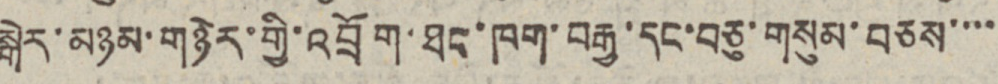སྒེར་མཉམ་གཉེར་གྱི་འབྲོག་ཐང་ཁག་བརྒྱ་དང་བཅུ་གསུམ་བཅས་་་་
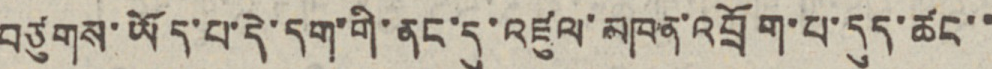བཙུགས་ཡོད་པ་དེ་དག་གི་ནང་དུ་འཛུལ་མཁན་འབྲོག་པ་དུད་ཚང་་
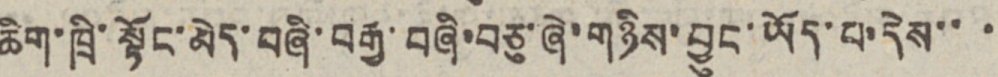ཆིག་ཁྲི་སྟོང་མེད་བཞི་བརྒྱ་བཞི་བཅུ་ཞེ་གཉིས་བྱུང་ཡོད་པ་དེས་་་
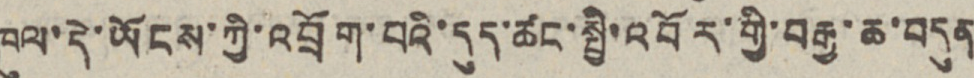ཁུལ་དེ་ཡོངས་ཀྱི་འབྲོག་པའི་དུད་ཚང་སྤྱི་འབོར་གྱི་བརྒྱ་ཆ་བདུན་
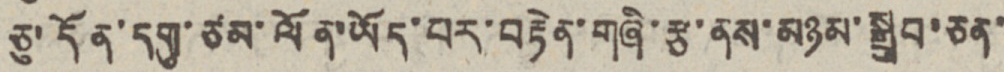ཅུ་དོན་དགུ་ཙམ་ལོན་ཡོད་པར་བརྟེན་གཞི་རྩ་ནས་མཉམ་སྒྲུབ་ཅན་
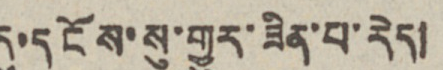དུ་དངོས་སུ་གྱུར་ཟིན་པ་རེད།
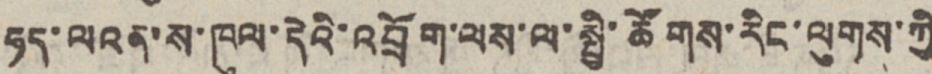ཧད་ལའན་ས་ཁུལ་དེའི་འབྲོག་ལས་ལ་སྤྱི་ཚོགས་རིང་ལུགས་ཀྱི
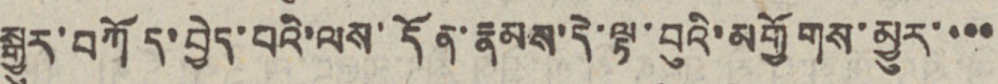སྒྱུར་བཀོད་བྱེད་པའི་ལས་དོན་རྣམས་དེ་ལྟ་བུའི་མགྱོགས་མྱུར་་་་
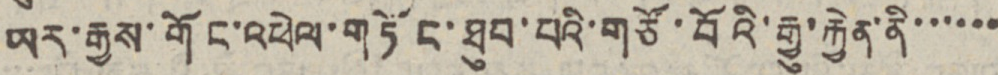ཡར་རྒྱས་གོང་འཕེལ་གཏོང་ཐུབ་པའི་གཙོ་བོའི་རྒྱུ་རྐྱེན་ནི་་་་་་
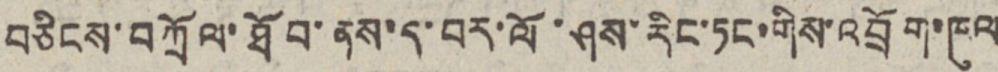བཅིངས་བཀྲོལ་ཐོབ་ནས་ད་བར་ལོ་ཤས་རིང་ཏང་གིས་འབྲོག་ཁུལ
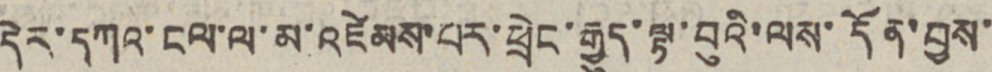དེར་དཀའ་ངལ་ལ་མ་འཛེམས་པར་ཕྲེང་རྒྱུད་ལྟ་བུའི་ལས་དོན་བྱས་
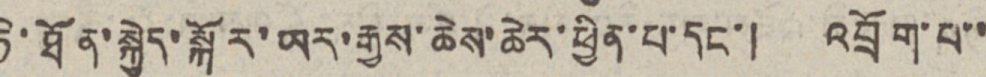ཏེ་ཐོན་སྐྱེད་སྐོར་ཡར་རྒྱས་ཆེས་ཆེར་ཕྱིན་པ་དང་། འབྲོག་པ་་
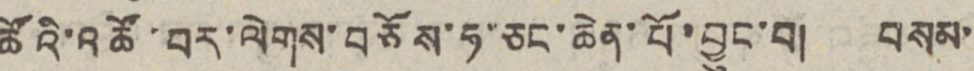ཚོའི་འཚོ་བར་ལེགས་བཅོས་ཧ་ཅང་ཆེན་པོ་བྱུང་བ། བསམ་་
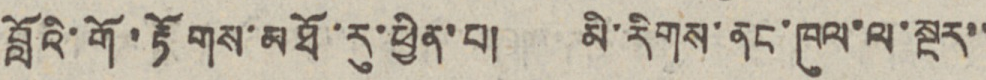བློའི་གོ་རྟོགས་མཐོ་རུ་ཕྱིན་པ། མི་རིགས་ནང་ཁུལ་ལ་སྔར་་
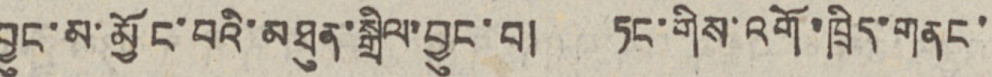བྱུང་མ་མྱོང་བའི་མཐུན་སྒྲིལ་བྱུང་བ། ཏང་གིས་འགོ་ཁྲིད་གནང་
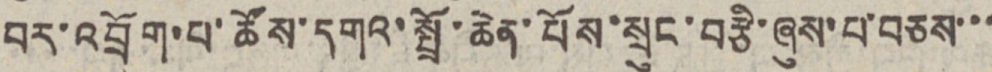བར་འབྲོག་པ་ཚོས་དགའ་སྤྲོ་ཆེན་པོས་སྲུང་བརྩི་ཞུས་པ་བཅས་་་
